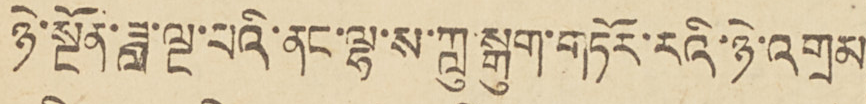ཉེ་སྔོན་ཟླ་ལྔ་པའི་ནང་ལྷ་ས་ཀླུ་སྒྲུབ་གཏོར་རའི་ཉེ་འགྲམ
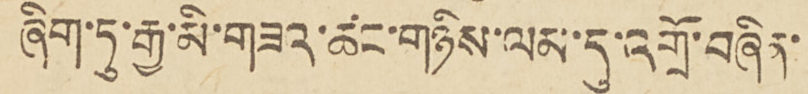ཞིག་ཏུ་རྒྱ་མི་གཟའ་ཚང་གཉིས་ལམ་དུ་འགྲོ་བཞིན་
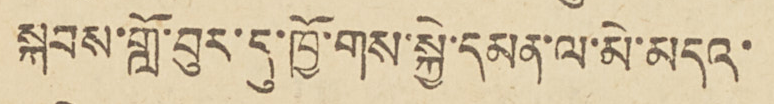སྐབས་གློ་བུར་དུ་ཁྱོ་གས་སྐྱེ་དམན་ལ་མེ་མདའ་
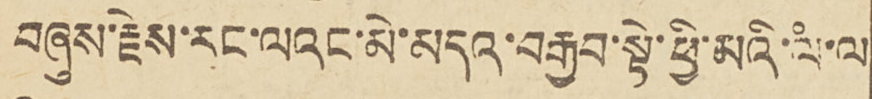བཞུས་རྗེས་རང་ལའང་མེ་མདའ་བརྒྱབ་སྟེ་ཕྱི་མའི་ལཾ་ལ་
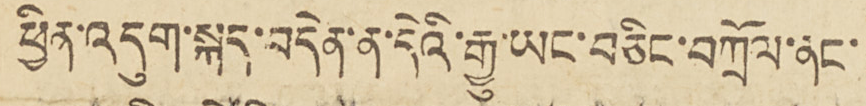ཕྱིན་འདུག་སྐད་བདེན་ན་དེའི་རྒྱུ་ཡང་བཅིང་བཀྲོལ་ནང་
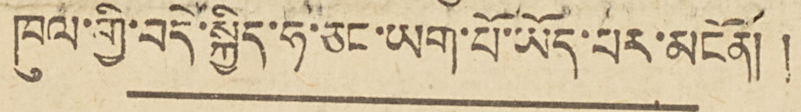ཁུལ་གྱི་བདེ་སྐྱིད་ཧ་ཅང་ཡག་པོ་ཡོད་པར་མངོན།།
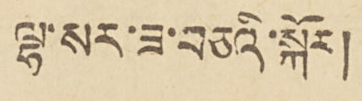ལྷ་སར་ཟ་བཅའི་སྐོར།
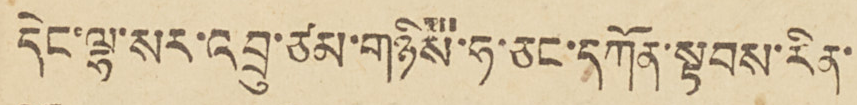དེང་ལྷ་སར་འབྲུ་ཙམ་གཉིས་ཧ་ཅང་དཀོན་སྟབས་རིན་
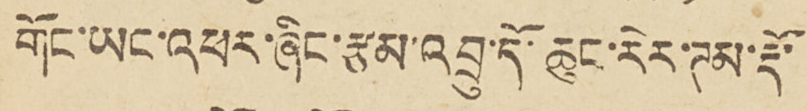གོང་ཡང་འཕར་ཞིང་རྩམ་འབྲུ་དོ་ཆུང་རེར་ཌམ་རྡོ་
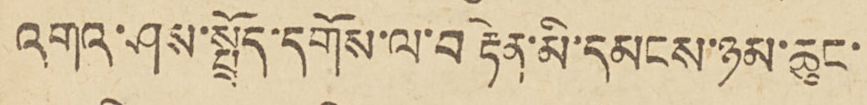འགའ་ཤས་སྤྲོད་དགོས་ལ་བརྟེན་མི་དམངས་ཉམ་ཆུང་
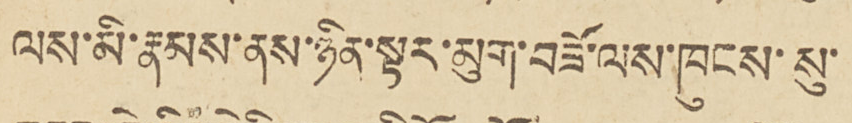ལས་མི་རྣམས་ནས་ཉིན་ལྟར་མུག་བཟོ་ལས་ཁུངས་སུ་
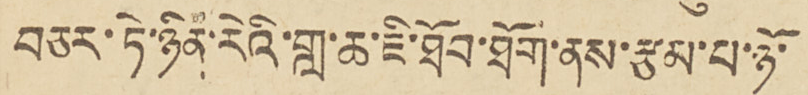བཅར་ཏེ་ཉིན་རེའི་གླ་ཆ་ཇི་ཐོབ་ཐག་ནས་རྩམ་པ་ཉོ་
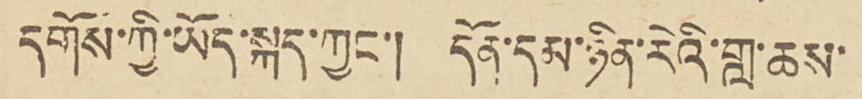དགོས་ཀྱི་ཡོད་སྐད་ཀྱང་། དོན་དམ་ཉིན་རེའི་གླ་ཆས་
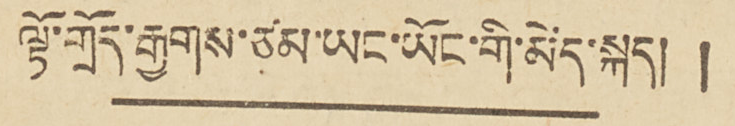ལྟོ་གྲོད་རྒྱགས་ཙམ་ཡང་ཡོང་གི་མེད་སྐད།།
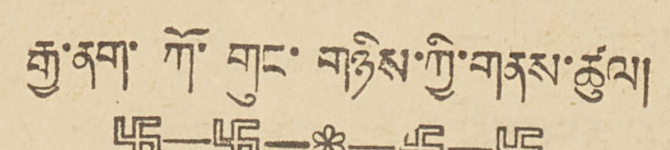རྒྱ་ནག་ཀོ་གུང་གཉིས་ཀྱི་གནས་ཚུལ།
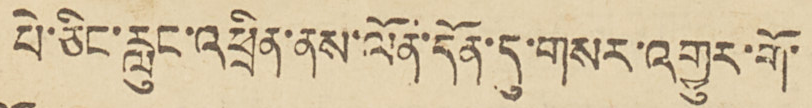པེ་ཅིང་རླུང་འཕྲིན་ནས་ལོན་དོན་དུ་གསར་འགྱུར་གོ་
